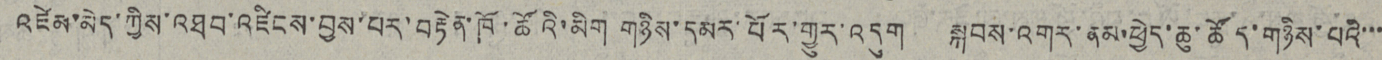འཛེམ་མེད་ཀྱིས་འཐབ་འཛིངས་བྱས་པར་བརྟེན་ཁོ་ཚོའི་མིག གཉིས་དམར་པོར་གྱུར་འདུག སྐབས་འགར་ནམ་ཕྱེད་ཆུ་ཚོད་གཉིས་པའི་་་
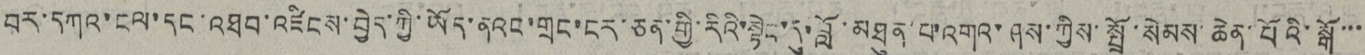བར་དཀའ་ངལ་དང་འཐབ་འཛིངས་བྱེད་ཀྱི་ཡོད་ནའང་གྲང་ངར་ཅན་གྱི་རིའི་སྟེང་དུ་བློ་མཐུན་པ་འགའ་ཤས་ཀྱིས་སྤྲོ་སེམས་ཆེན་པོའི་སྒོ་་་
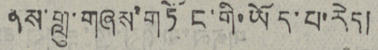ནས་གླུ་གཞས་གཏོང་གི་ཡོད་པ་རེད།
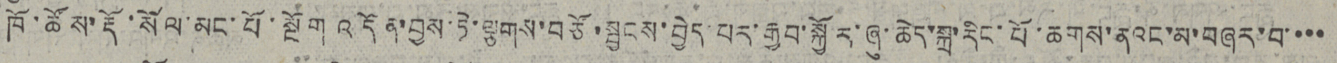ཁོ་ཚོས་རྡོ་སོལ་མང་པོ་སྔོག འདོན་བྱས་ཏེ་ལྕགས་བཙོ་སྦྱངས་བྱེད་པར་རྒྱབ་སྐྱོར་ཞུ་ཆེད་སྐྲ་རིང་པོ་ཆགས་ནའང་མ་བཞར་བ་་་་
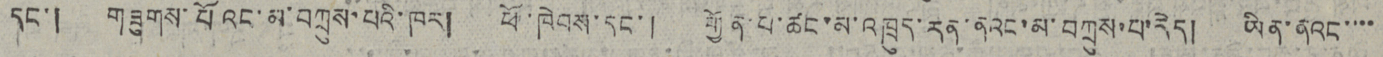དང་། གཟུགས་པོའང་མ་བཀྲུས་པའི་ཁར། ཕོ་ཁེབས་དང་། རགྱོན་པ་ཚང་མ་འཁྲུད་རན་ནའང་མ་བཀྲས་པ་རེད། ཡིན་ནའང་་་་
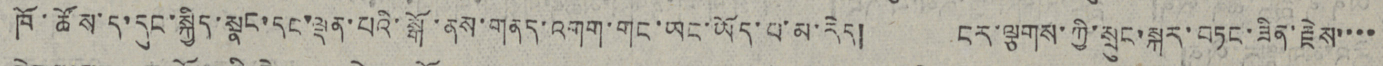ཁོ་ཚོས་ད་དུང་སྐྱིད་སྣང་དང་ལྡན་པའི་སྒོ་ནས་གནད་འགག་གང་ཡང་ཡོད་པ་མ་རེད། ངར་ལྕགས་ཀྱི་སྲུང་སྐྱར་བཏང་ཟིན་རྗེས་་་་
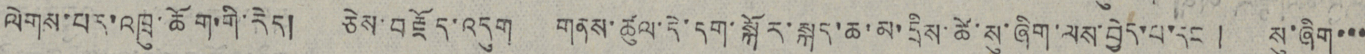ལེགས་པར་འཁྲུ་ཆོག་གི་རེད། ཅེས་བརྗོད་འདུག གནས་ཚུལ་དེ་དག་སྐོར་སྐད་ཆ་མ་དྲིས་ཚེ་སུ་ཞིག་ལས་བྱེད་པ་དང ། སུ་ཞིག་་་
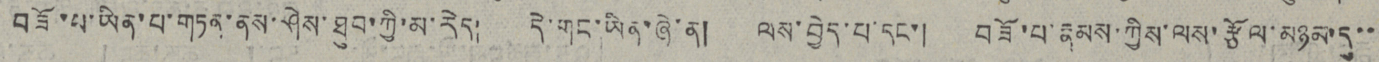བཟོ་པ་ཡིན་པ་གཏན་ནས་ཤེས་ཐུབ་ཀྱི་མ་རེད། དེ་གང་ཡིན་ཞེ་ན། ལས་བྱེད་པ་དང་། བཟོ་པ་རྣམས་ཀྱིས་ལས་རྩོལ་མཉམ་དུ་་
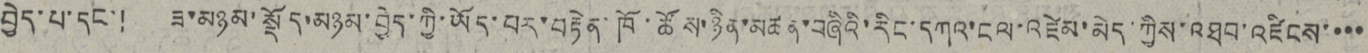བྱེད་པ་དང་། ཟ་མཉམ་སྡོད་མཉམ་བྱེད་ཀྱི་ཡོད་པར་བརྟེན་ཁོ་ཚོས་ཉིན་མཚན་བཞིའི་རིང་དཀའ་ངལ་འཛེམ་མེད་ཀྱིས་འཐབ་འཛིངས་་་་
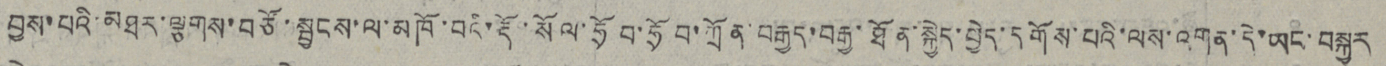བྱས་པའི་མཐར་ལྕགས་བཙོ་སྦྱངས་ལ་མཁོ་བའི་རྡོ་སོལ་ཧྲོབ་ཧྲོབ་ཀྲོན་བརྒྱད་བརྒྱ་ཐོན་སྐྱེད་བྱེད་དགོས་པའི་ལས་འགན་དེ་ཡང་བསྐུར
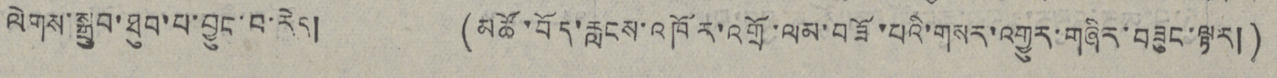ལེགས་སྒྲུབ་ཐུབ་པ་བྱུང་བ་རེད། (མཚོ་བོད་རླངས་འཁོར་འགྲོ་ལམ་བཟོ་པའི་གསར་འགྱུར་གཞིར་བཟུང་ལྟར།)
